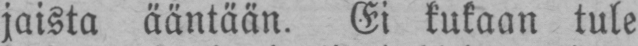jaista ääntään. Ei kukaan tule
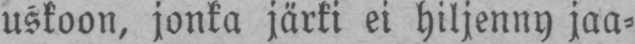uskoon, jonka järki ei hiljenny jaa-
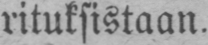rituksistaan.
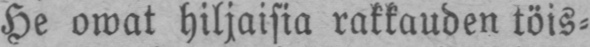He owat hiljaisia rakkauden töis-
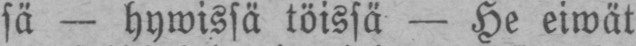sä — hywissä töissä — He eiwät
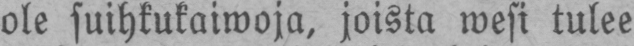ole suihkukaiwoja, joista wesi tulee
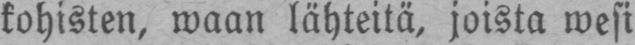kohisten, waan lähteitä, joista wesi
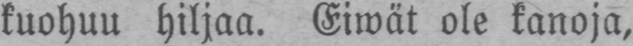kuohuu hiljaa. Eiwät ole kanoja,
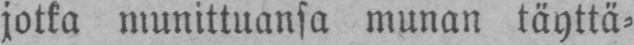jotka munittuansa munan täyttä-
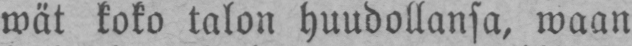wät koko talon huudollansa, waan
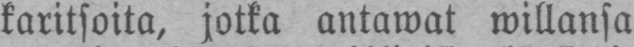karitsoita, jotka antawat willansa
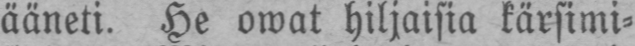ääneti. He owat hiljaisia kärsimi-
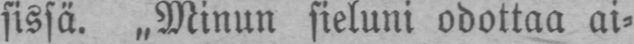sissä. „Minun sieluni odottaa ai-
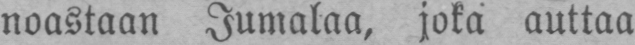noastaan Jumalaa, joka auttaa
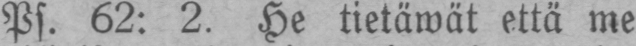Ps. 62: 2. He tietäwät että me
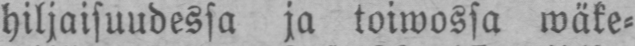hiljaisuudessa ja toiwossa wäke-
